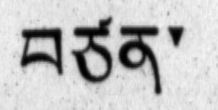བཙན་
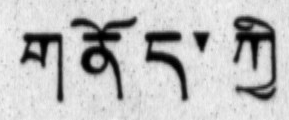གནོད་ཀྱི
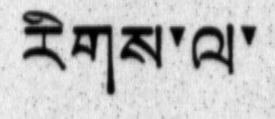རིགས་ལ་
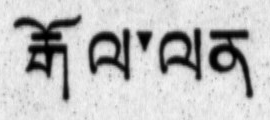རྒོལ་ལན་
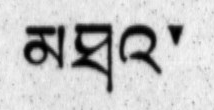མཐའ་
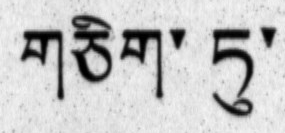གཅིག་ཏུ་
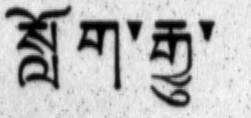སློག་རྒྱུ་
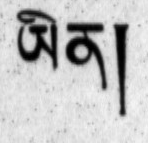ཡིན།
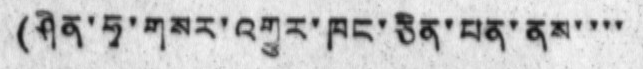(ཤིན་ཧྭ་གསར་འགྱུར་ཁང་ཅིན་པན་ནས་་་་
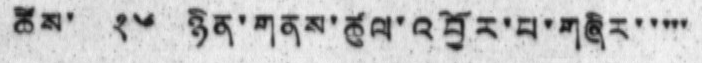ཚེས་ ༢༦ ཉིན་གནས་ཚུལ་འབྱོར་བ་གཞིར་་་་་
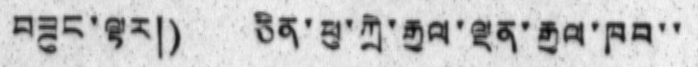བཟུང་ལྟར།) ཅིན་ཕུ་ཀྲི་རྒྱལ་ལྡན་རྒྱལ་ཁབ་་
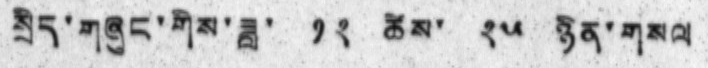སྲིད་གཞུང་གིས་ཟླ་ ༡༢ ཚེས་ ༢༥ ཉིན་གསལ
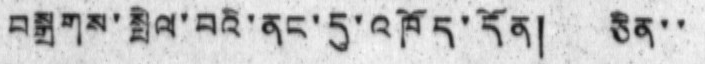བསྒྲགས་སྤེལ་བའི་ནང་དུ་འཁོད་དོན། ཅིན་་
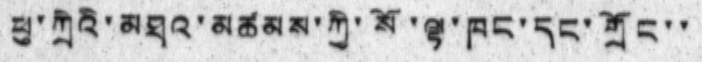ཕུ་ཀྲིའི་མཐའ་མཚམས་ཀྱི་སོ་ལྷ་ཁང་དང་གྲོང་་
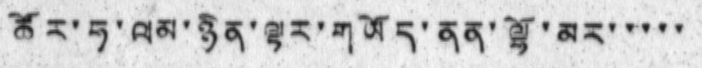ཚོར་ཧ་ལམ་ཉིན་ལྟར་གཡོད་ནན་ལྷོ་མར་་་་་
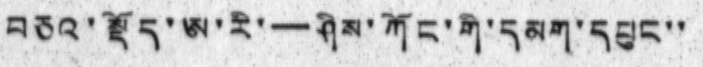བཅའ་སྡོད་ཨ་རི་— ཤིས་ཀོང་གི་དམག་དཔུང་་
